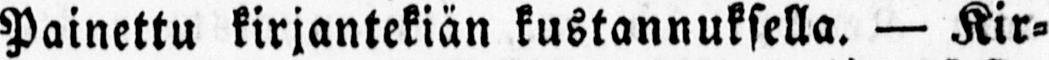Painettu kirjantekiän kustannuksella. — Kir-
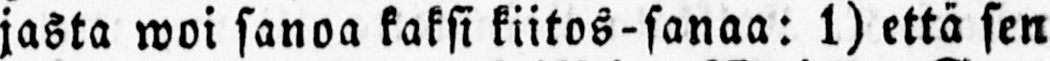jasta woi sanoa kaksi kiitos-sanaa: 1) että sen
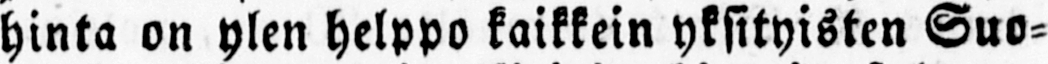hinta on ylen helppo kaikkein yksityisten Suo-
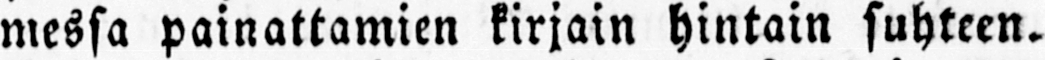messa painattamien kirjain hintain suhteen.
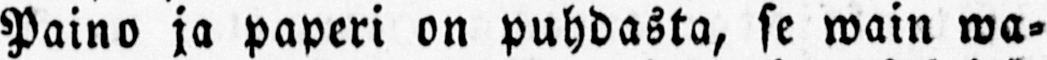Paino ja paperi on puhdasta, se wain wa-
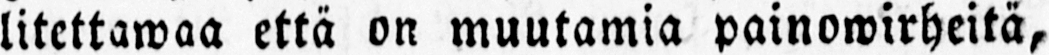litettawaa että on muutamia painowirheitä,
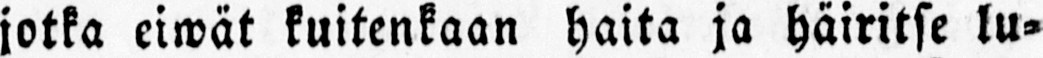jotka eiwät kuitenkaan haita ja häiritse lu-
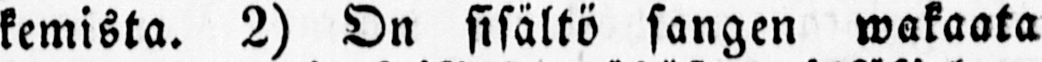kemista. 2) On sisältö sangen wakaata
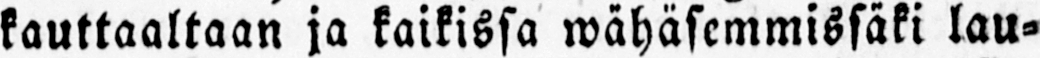kauttaaltaan ja kaikissa wähäsemmissäki lau-
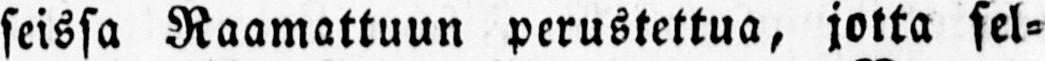seissa Raamattuun perustettua, jotta sel-
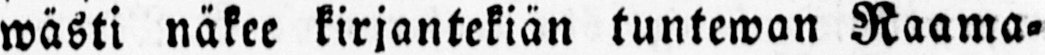wästi näkee kirjantekiän tuntewan Raama-
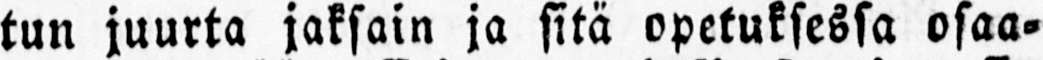tun juurta jaksain ja sitä opetuksessa osaa-
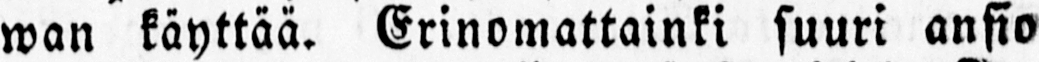wan käyttää. Erinomattainki suuri ansio
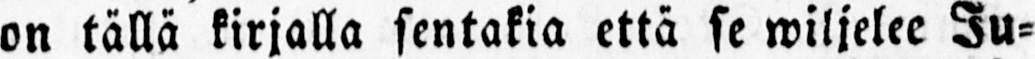on tällä kirjalla sentakia että se wiljelee Ju-
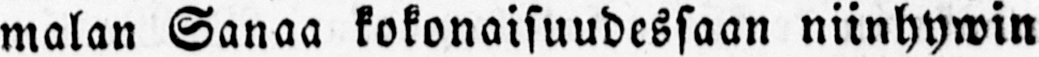malan Sanaa kokonaisuudessaan niinhywin
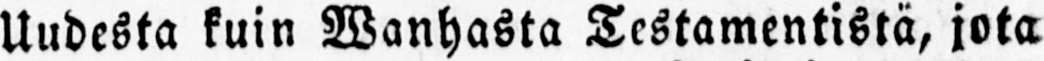Uudesta kuin Wanhasta Testamentistä, jota
